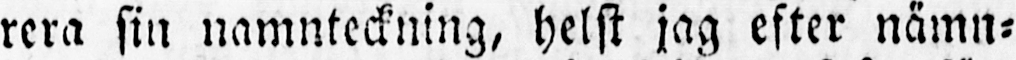rera sin namnteckning, helst jag efter nämn-
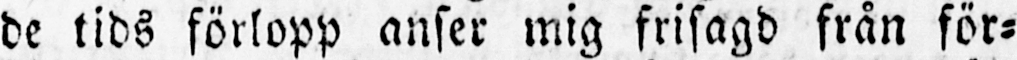de tids förlopp anser mig frisagd från för-
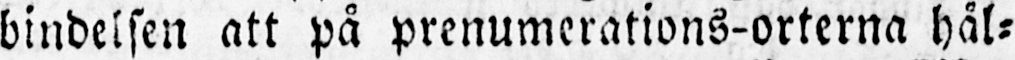bindelsen att på prenumerations-orterna hål-
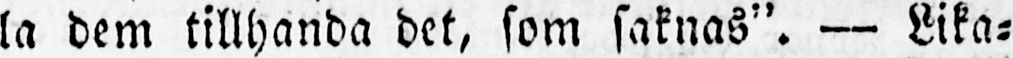la dem tillhanda det, som saknas". — Lika-
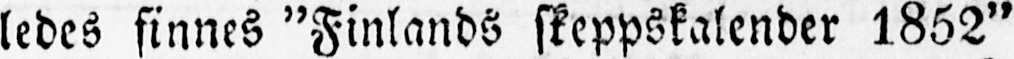ledes sinnes "Finlands skeppskalender 1852"
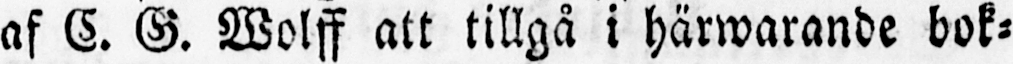af C. G. Wolff att tillgå i härwarande bok-
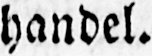handel.
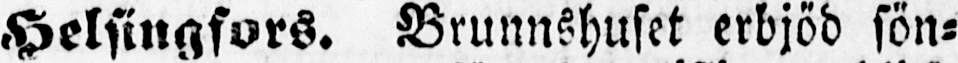Helsingfors. Brunnshuset erbjöd sön-
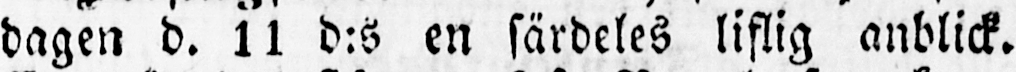dagen d. 11 d:s en särdeles liflig anblick.
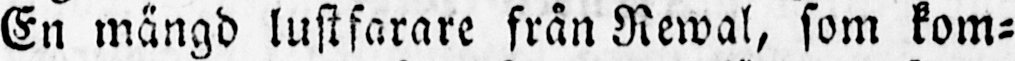En mängd lustfarare från Rewal, som kom-
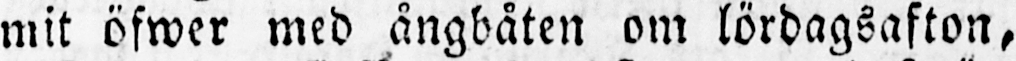mit öfwer med ångbåten om lördagsafton,
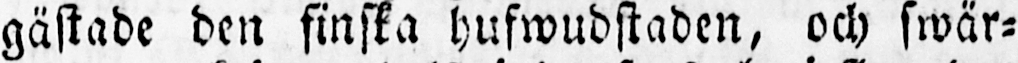gästade den finska hufwudstaden, och swär-
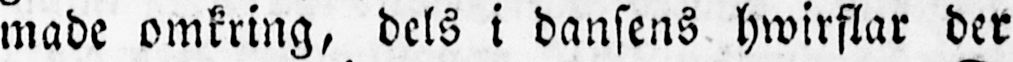made omkring, dels i dansens hwirflar der
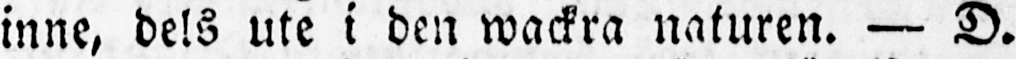inne, dels ute i den wackra naturen. — D.
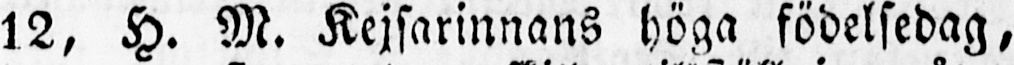12, H. M. Kejsarinnans höga födelsedag,
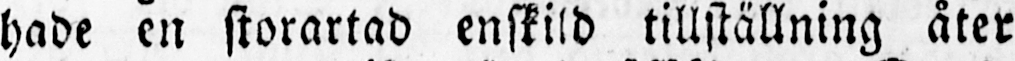hade en storartad enskild tillställning åter
